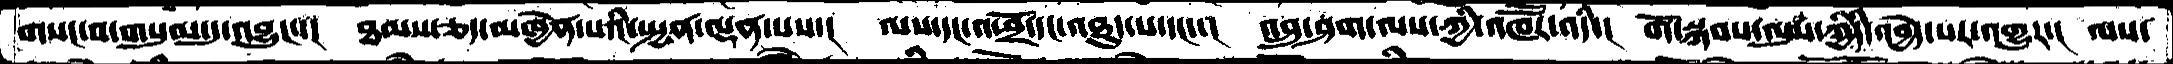གསང་བ་གསུམ་དུ་འབྱུང་་།  ཐམས་ཅད་མཁྱེན་པའི་སྤྱན་ལྡན་པས་།  ལས་དང་འཕྲོ་དང་འཐུད་པ་དང་་།  འབྲུ་ཤག་ལས་ཀྱི་འཁཽར་འདི་།  གོ་སྐབས་ལུས་ཀྱིདི་འབྱེད་པར་འགྱུར་།  ལས་
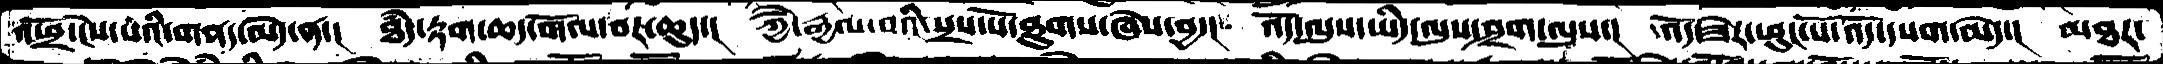འཕྲོ་ངེས་པའི་གནད་མེད་ན་།  ཐཾད་རྟག་ཆད་གོལ་བར་ཆུད་།  ཀྱཻ་རྒྱལ་བའི་སྲས་པོ་ཐུགས་ཞེས་བྱ་།  འོད་ལུས་ཡིད་ལུས་ཤྲག་ལུས་།  འོད་ཟེར་ཕུང་པོ་འོད་དཔག་མེད་།  མཐར་
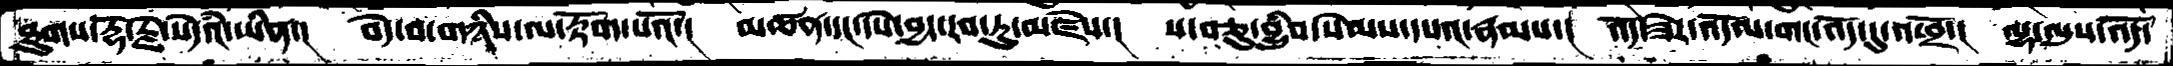ཐུགས་རྡོ་རྗེ་སེདཾའ་ཡིན་།  བདེ་བ་གཉིས་ལ་རྟོག་པའོ་།  མཚན་དང་དཔེ་བྱད་རབ་ཏུ་མཛེས་།  ས་བཅུ་བྱུཾབ་སེམས་དཔའ་རྣམས་།  འོད་ཟེར་འོདལ་གང་འོད་དུ་འཕྲོ་།  ལྷ་ལུས་འོད་
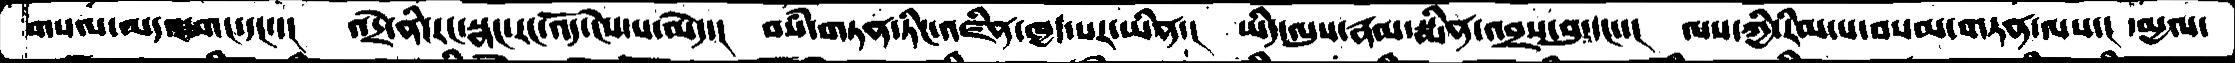གསལ་མདའ་གང་དང་་།   འདྲེ་ནི་རང་སྣང་རང་འོད་ངེས་པ་མེད་།  བསཾ་གཏན་ཏིང་འཛིན་ཁྱད་པར་ཡིན་།  ཡིད་ལུས་རྣམ་སྨིན་འབྲས་བུ་དང་་།  ལས་ཀྱི་རིམ་པ་བསམ་གཏན་ལས་།  དམྱལ་
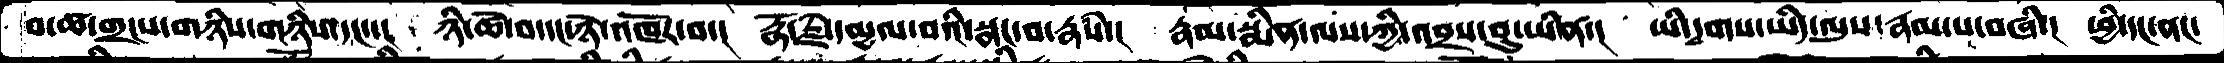བ་ཚ་གྲངས་གཉིས་གཉིས་དང་་།  ཉི་ཚེ་བ་དང་ཉེ་འཁོར་བ་།  རྡོ་རྗེ་དམྱལ་བའི་སྣང་བ་རྣཾས་།   རྣམ་སྨིན་ལས་ཀྱི་འབྲས་བུ་ཡིན་།  ཡི་དྭགས་ཡིད་ལུས་རྣམ་པ་བཞི་།  ཕྱི་དང་ནང་
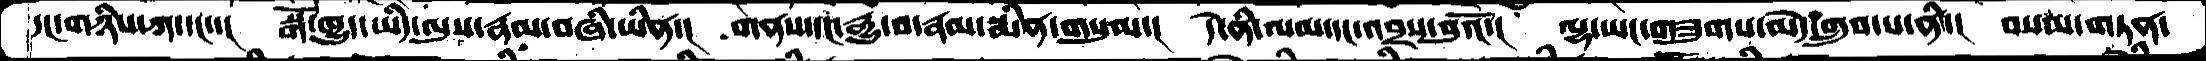དང་གཉིས་ཀ་དང་་།  སྒོ་ཁྱུད་ཡིད་ལུས་རྣམ་བཞི་ཡིན་།  གནས་དང་རྒྱུ་བ་རྣམ་སྨིན་གསུམ་།  དེ་ནི་ལམ་དང་འབྲས་བུའོ་།  ལྷ་ཡང་གཟུགས་མེད་གྲུབ་པ་ནི་།  བསམ་གཏན་
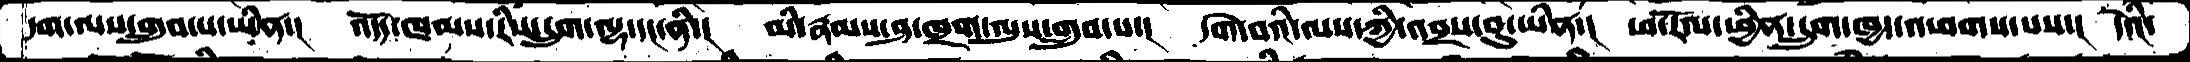དག་ལས་གྲུབ་པ་ཡིན་།   འདོད་ཁམས་རིས་དྲུག་ལྷ་དང་ནི་།  མི་རྣམས་ཤ་ཁྲག་ལུས་གྲུབ་པ་།  དགེ་བའི་ལས་ཀྱི་འབྲས་བུ་ཡིན་།  ཕ་རོལ་ཕྱིན་དྲུག་ཁྱད་འཕགས་པས་།  དེའི་
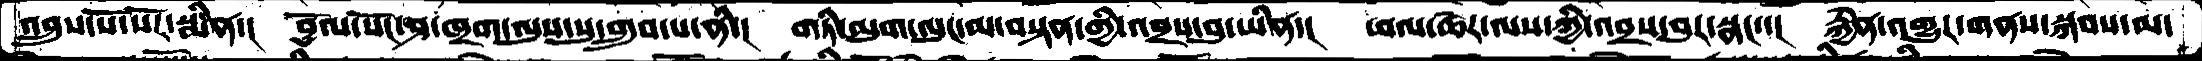འབྲུས་སོ་སོར་སྨིན་།  བྱོལ་སོང་ཤ་ཁྲག་ལུས་སུ་གྲུབ་པ་ནི་།  གཏི་མུག་ལུང་མ་བསྟན་གྱི་འབྲས་བུ་ཡིན་།  ཕལ་ཆེར་ལས་ཀྱི་འབྲས་བུར་སྣང་་།  རྐྱེན་འགྱུར་གནས་སྐབས་མ་
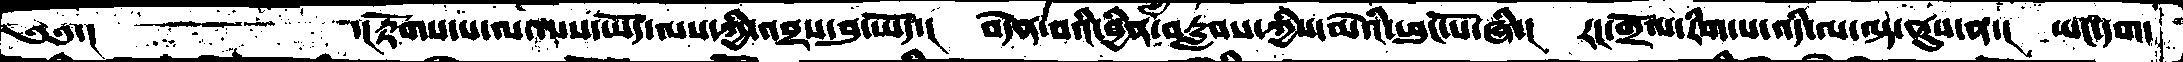༄༅་།          ་།རྟོགས་པ་ལ་ལས་ཡོད་ལས་ཀྱི་འབྲས་བུ་ཡོད་།  བདེན་པའི་བྱིན་བརླབས་ཀྱིས་མེའི་ཕུང་པོ་ཞི་།  རང་གྲོལ་རིག་པ་འདི་ལ་ལྟ་ནུས་ན་།   ཡང་དག་
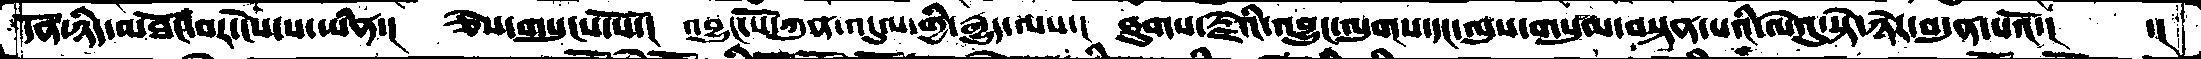དོན་ཉིད་མཐོང་བར་ངེས་པ་ཡིན་།  ཅེས་གསུངས་སོ་།  འབྱུང་པོ་ཀུན་འདུལ་གྱི་རྒྱུད་ལས་།  ཐུགས་རྗེའི་འབྱུང་ལུགས་དང་ལུས་གསུམ་བསྟན་པའི་ལེའུ་སྟེ་ཉེར་བདུན་པའོ་།   ་།
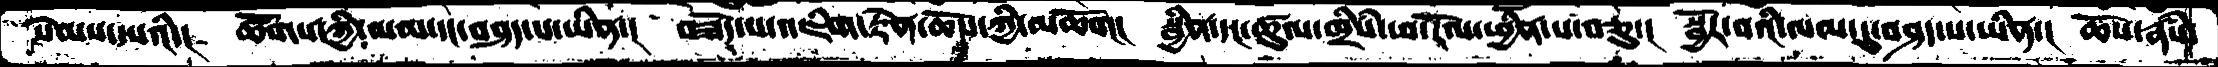སེམས་དཔའི་།  ཚོགས་ཀྱི་ལམ་དང་བཤད་པ་ཡིན་།  བཟོད་པ་འཇིག་རྟེན་ཆོས་ཀྱི་མཆོག།  སྦྱིན་དང་ཚུལ་ཁྲིཾས་ཕ་རོལ་ཕྱིན་པ་བཅུ་།  སྦྱོར་བའི་ལམ་དུ་བཤད་པ་ཡིན་།  ཆོས་རྣཾས་
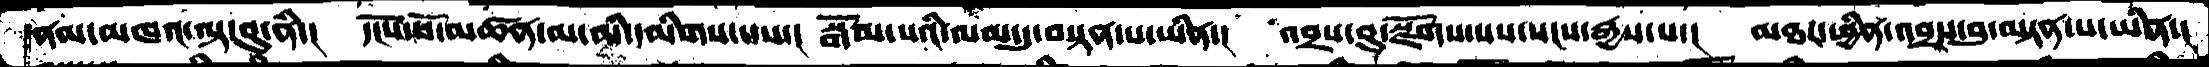ནམ་མཁའ་ལྟ་བུ་ནི་།  དངོས་པོ་མཚན་མ་མི་དམིགས་པས་།  སྒོམ་པའི་ལམ་དུ་བསྟན་པ་ཡིན་།  འབྲས་བུ་སྫོགས་པས་སངས་རྒྱས་པ་།  མཐར་ཕྱིན་འབྲས་བུ་བསྟན་པ་ཡིན་།
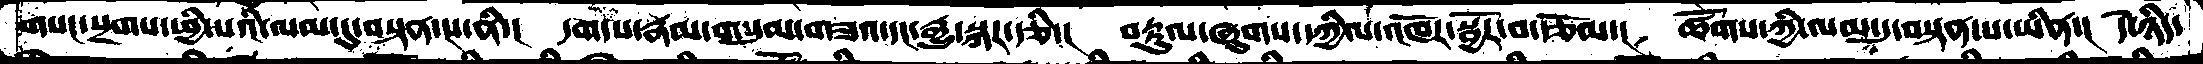གསང་སྔགས་ཕྱི་པའི་ལམ་དུ་བསྟན་པ་ནི་།  དག་པ་རྣམ་གསུམ་གཟའ་དང་རྒྱུ་སྐར་རྩི་།  བརྟུལ་ཞུགས་དཀྱིལ་འཁོར་སྦྱོར་བ་རྩོམ་།  ཚོགས་ཀྱི་ལམ་དུ་བསྟན་པ་ཡིན་།  དེ་ཉིད་
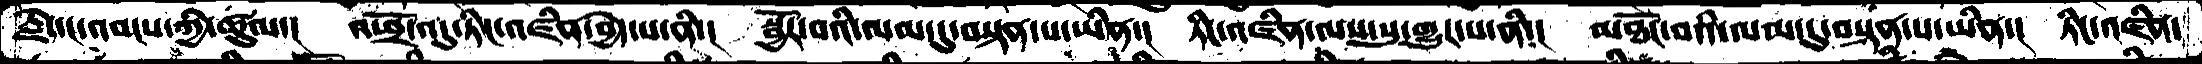རྗེ་དང་འབངས་ཀྱི་ཚུལ་།  འཕྲོ་འདུ་ཏིང་འཛིན་བྱེད་པ་ནི་།  སྦྱོར་བའི་ལམ་དུ་བསྟན་པ་ཡིན་།  ཏིང་འཛིན་ལས་སུ་གྱུར་པ་ནི་།  མཐོང་བའི་ལམ་དུ་བསྟན་པ་ཡིན་།  ཏིང་འཛིན་
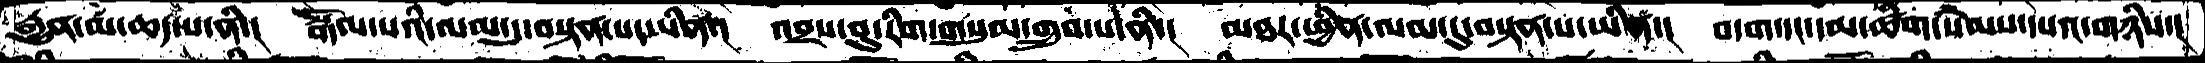རྒྱུན་མ་ཆད་པ་ནི་།  སྒོམ་པའི་ལམ་དུ་བསྟན་པ་ཡིན་།  འབྲས་བུ་རིག་གསུམ་གྲུབ་པ་ནི་།  མཐར་ཕྱིན་ལམ་དུ་བསྟན་པ་ཡིན་།  བདག་དང་དམ་ཚིག་སེམས་དཔའ་གཉིས་།
